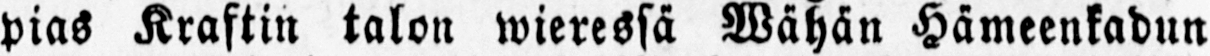pias Kraftin talon wieressä Wähän Hämeenkadun
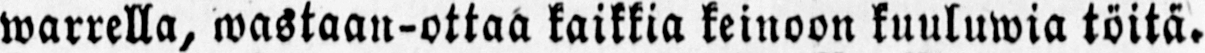warrella, wastaan-ottaa kaikkia keinoon kuuluwia töitä.
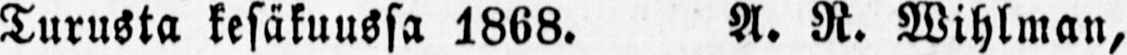Turusta kesäkuussa 1868. A. R. Wihlman,
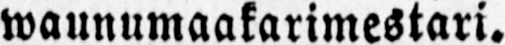waunumaakarimestari.
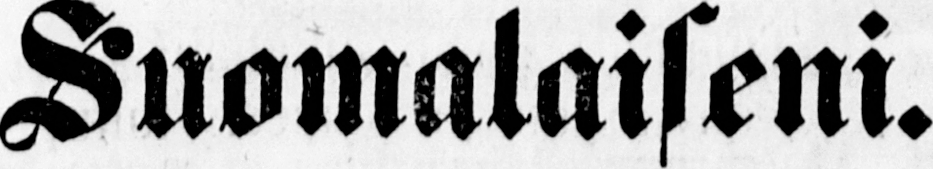Suomalaiseni.
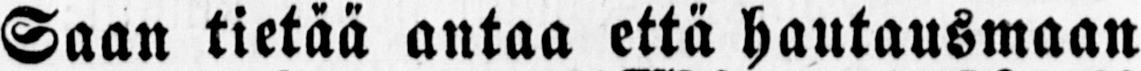Saan tietää antaa että hautausmaan
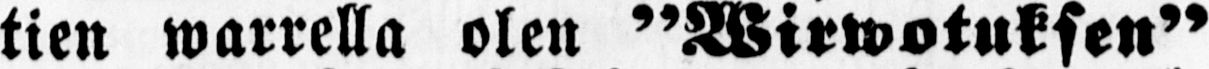tien warrella olen "Wirwotuksen"
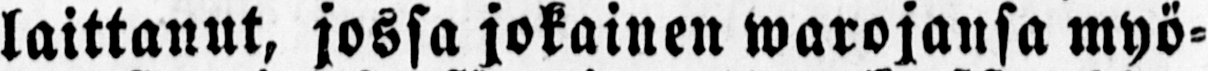laittanut, jossa jokainen warojansa myö-
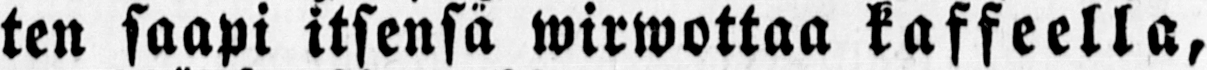ten saapi itsensä wirwottaa kaffeella,
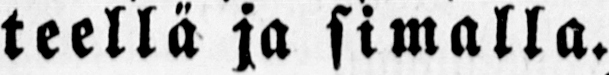teellä ja simalla.
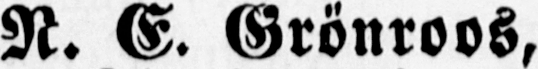N. E. Grönroos,
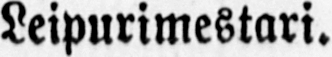Leipurimestari.
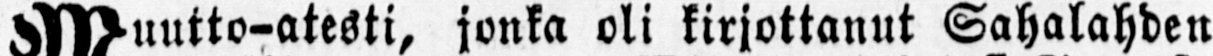Muutto-atesti jonka oli kirjottanut Sahalahden
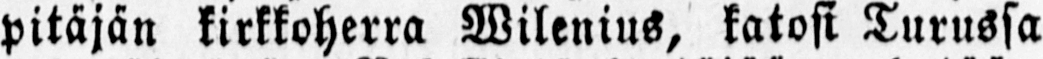pitäjän kirkkoherra Wilenius, katosi Turussa
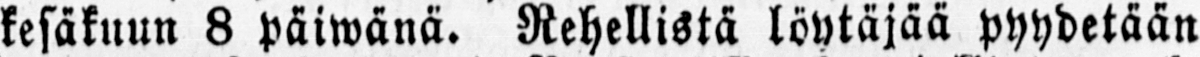kesäkuun 8 päiwänä. Rehellistä löytäjää pyydetään
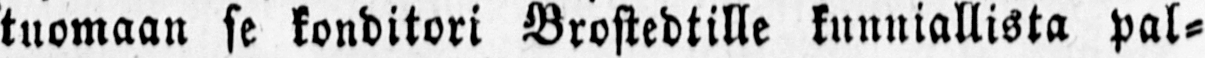tuomaan se konditori Brostedtille kunniallista pal-
